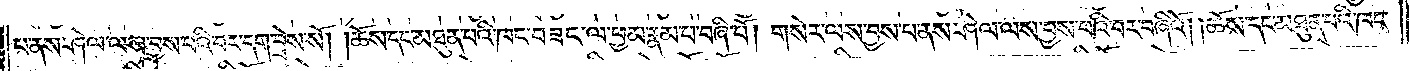པ་ནས་ཤེལ་ལས་བྱས་པའི་བར་དག་བྲེས་སོ། །ཆོས་དང་མཐུན་པའི་ཁང་བཟང་ལ་ཕྱམ་རྣམ་པ་བཞི་པོ། གསེར་ལས་བྱས་པ་ནས་ཤེལ་ལས་བྱས་པའི་བར་བཞིའོ། །ཆོས་དང་མཐུན་པའི་ཁང་
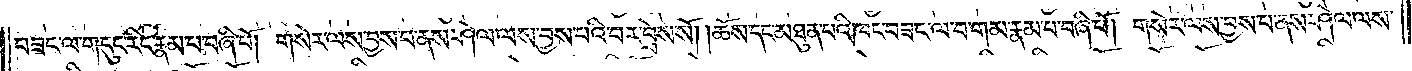བཟང་ལ་གདུང་རིང་རྣམ་པ་བཞི་པོ། གསེར་ལས་བྱས་པ་ནས་ཤེལ་ལས་བྱས་པའི་བར་བྲེས་སོ། །ཆོས་དང་མཐུན་པའི་ཁང་བཟང་ལ་བ་གམ་རྣམ་པ་བཞི་པོ། གསེར་ལས་བྱས་པ་ནས་ཤེལ་ལས་
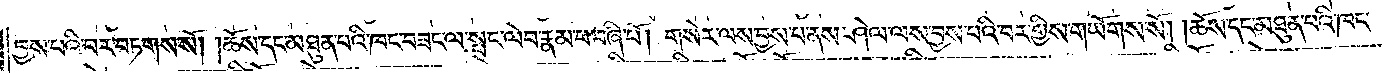བྱས་པའི་བར་བཏགས་སོ། །ཆོས་དང་མཐུན་པའི་ཁང་བཟང་ལ་སྤང་ལེབ་རྣམ་པ་བཞི་པོ། གསེར་ལས་བྱས་པ་ནས་ཤེལ་ལས་བྱས་པའི་བར་གྱིས་གཡོགས་སོ། །ཆོས་དང་མཐུན་པའི་ཁང་
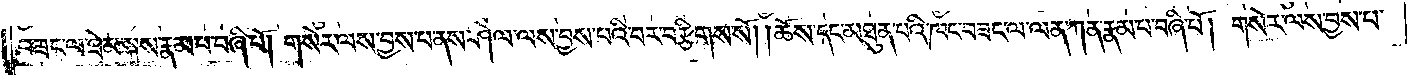བཟང་ལ་ཐེམ་སྐས་རྣམ་པ་བཞི་པོ། གསེར་ལས་བྱས་པ་ནས་ཤེལ་ལས་བྱས་པའི་བར་བརྩིགས་སོ། །ཆོས་དང་མཐུན་པའི་ཁང་བཟང་ལ་ལན་ཀན་རྣམ་པ་བཞི་པོ། གསེར་ལས་བྱས་པ་
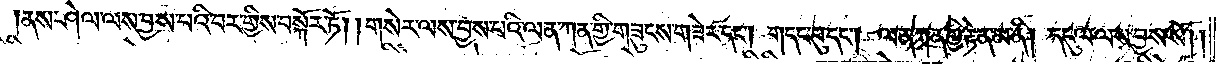ནས་ཤེལ་ལས་བྱས་པའི་བར་གྱིས་བསྐོར་ཏོ། །གསེར་ལས་བྱས་པའི་ལན་ཀན་གྱི་གཟུངས་གཟེར་དང༌། གདང་བུ་དང༌། ལན་ཀན་གྱི་རྟེན་མ་ནི། དངུལ་ལས་བྱས་སོ། །
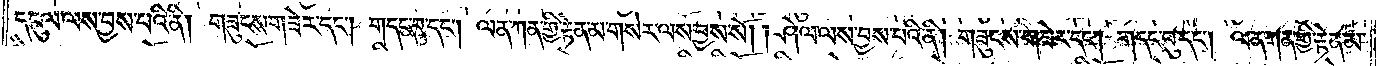དངུལ་ལས་བྱས་པའི་ནི། གཟུངས་གཟེར་དང༌། གདང་བུ་དང༌། ལན་ཀན་གྱི་རྟེན་མ་གསེར་ལས་བྱས་སོ། །ཤེལ་ལས་བྱས་པའི་ནི། གཟུངས་གཟེར་དང༌། གདང་བུ་དང༌། ལན་ཀན་གྱི་རྟེན་མ་
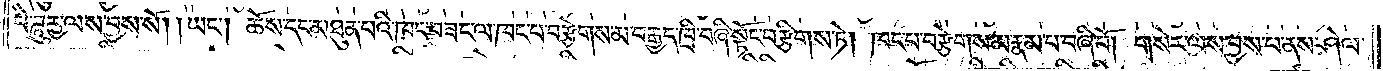བཻ་ཌཱུརྱ་ལས་བྱས་སོ། །ཡང༌། ཆོས་དང་མཐུན་པའི་ཁང་བཟང་ལ་ཁང་པ་བརྩེགས་མ་བརྒྱད་ཁྲི་བཞི་སྟོང་བརྩིགས་ཏེ། ཁང་པ་བརྩེགས་མ་རྣམ་པ་བཞི་པོ། གསེར་ལས་བྱས་པ་ནས་ཤེལ་
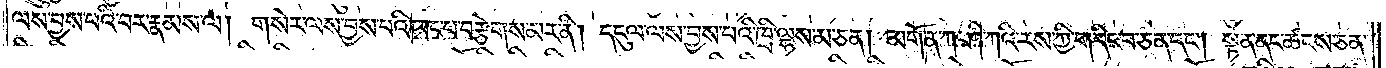ལས་བྱས་པའི་བར་རྣམས་ལ། གསེར་ལས་བྱས་པའི་ཁང་པ་བརྩེགས་མར་ནི། དངུལ་ལས་བྱས་པའི་ཁྲི་ལྷས་མ་ཅན། མགོ་ན་ཀ་ཤི་ཀའི་རས་ཀྱི་གདིང་བ་ཅན་དང༌། སྟན་ནང་ཚངས་ཅན་
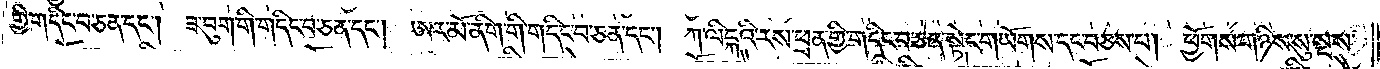གྱི་གདིང་བ་ཅན་དང༌། ཟ་བུག་གི་གདིང་བ་ཅན་དང༌། ཨར་མོ་ནིག་གི་གདིང་བ་ཅན་དང༌། ཀ་ལིངྐའི་རས་ཕྲན་གྱི་གདིང་བ་ཅན་སྟེང་གཡོགས་དང་བཅས་པ། ཕྱོགས་གཉིས་སུ་སྔས་
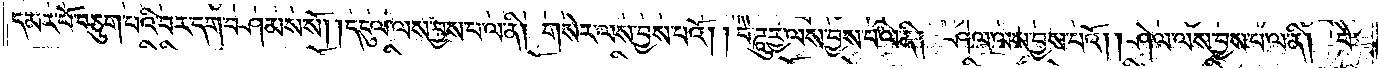དམར་པོ་བཅུག་པའི་བར་དག་བཤམས་སོ། །དངུལ་ལས་བྱས་པ་ལ་ནི། གསེར་ལས་བྱས་པའོ། །བཻ་ཌཱུརྱ་ལས་བྱས་པ་ལ་ནི། ཤེལ་ལས་བྱས་པའོ། །ཤེལ་ལས་བྱས་པ་ལ་ནི། བཻ་
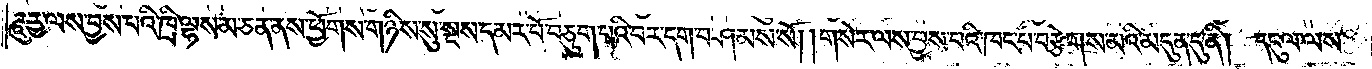ཌཱུརྱ་ལས་བྱས་པའི་ཁྲི་ལྷས་མ་ཅན་ནས་ཕྱོགས་གཉིས་སུ་སྔས་དམར་པོ་བཅུག་པའི་བར་དག་བཤམས་སོ། །གསེར་ལས་བྱས་པའི་ཁང་པ་བརྩེགས་མའི་མདུན་དུ་ནི། དངུལ་ལས་
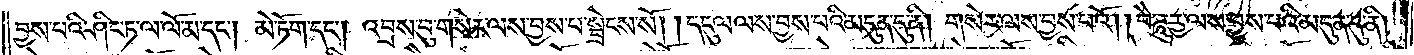བྱས་པའི་ཤིང་ཏ་ལ་ལོ་མ་དང༌། མེ་ཏོག་དང༌། འབྲས་བུ་གསེར་ལས་བྱས་པ་སྦྲེངས་སོ། །དངུལ་ལས་བྱས་པའི་མདུན་དུ་ནི། གསེར་ལས་བྱས་པའོ། །བཻ་ཌཱུརྱ་ལས་བྱས་པའི་མདུན་དུ་ནི།
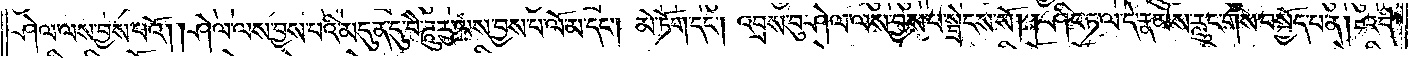ཤེལ་ལས་བྱས་པའོ། །ཤེལ་ལས་བྱས་པའི་མདུན་དུ་བཻ་ཌཱུརྱ་ལས་བྱས་པ་ལོ་མ་དང༌། མེ་ཏོག་དང༌། འབྲས་བུ་ཤེལ་ལས་བྱས་པ་སྦྲེངས་སོ། །ཤིང་ཏ་ལ་དེ་རྣམས་རླུང་གིས་བསྐྱོད་པ་ན། འདི་
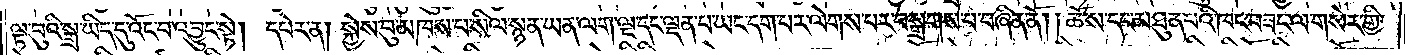ལྟ་བུའི་སྒྲ་ཡིད་དུ་འོང་བ་འབྱུང་སྟེ། དཔེར་ན། སྐྱེས་བུ་མཁས་པ་སིལ་སྙན་ཡན་ལག་ལྔ་དང་ལྡན་པ་ཡང་དག་པར་ལེགས་པར་བསྒྲགས་པ་བཞིན་ནོ། །ཆོས་དང་མཐུན་པའི་ཁང་བཟང་ལ་གསེར་གྱི་
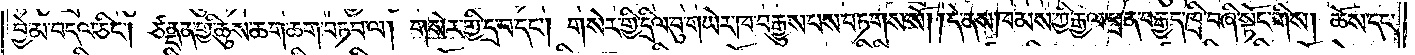བྱེ་མ་བདལ་ཅིང༌། ཙནྡན་གྱི་ཆུས་ཆག་ཆག་བཏབ་ལ། གསེར་གྱི་དྲ་བ་དང༌། གསེར་གྱི་དྲིལ་བུ་གཡེར་ཁ་བརྒྱུས་པས་བཏགས་སོ། །དེ་ནས་ཁམས་ཀྱི་རྒྱལ་ཕྲན་བརྒྱད་ཁྲི་བཞི་སྟོང་གིས། ཆོས་དང་
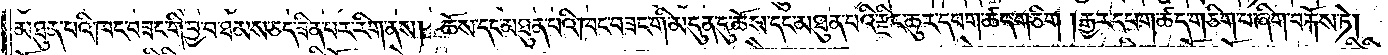མཐུན་པའི་ཁང་བཟང་གི་བྱ་བ་ཐམས་ཅད་ཟིན་པར་རིག་ནས། ཆོས་དང་མཐུན་པའི་ཁང་བཟང་གི་མདུན་དུ་ཆོས་དང་མཐུན་པའི་རྫིང་ཆུར་དཔག་ཚད་གཅིག །རྒྱར་དཔག་ཚད་གཅིག་པ་ཞིག་བརྐོས་ཏེ།
